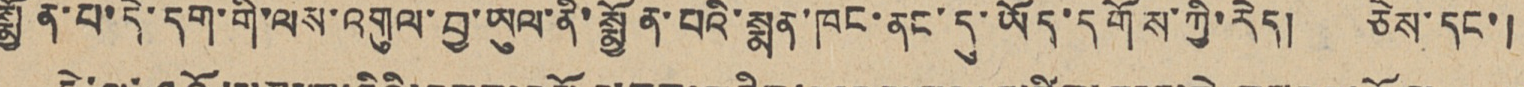སྨྱོན་པ་དེ་དག་གི་ལས་འགུལ་བྱ་ཡུལ་ནི་སྨྱོན་པའི་སྨན་ཁང་ནང་དུ་ཡོད་དགོས་ཀྱི་རེད། ཅེས་དང་།
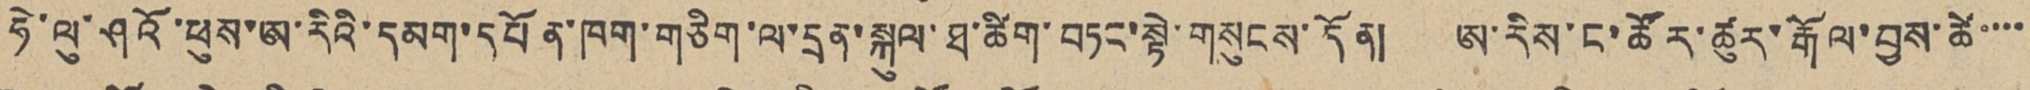ཧེ་ལུ་ཤའོ་ཕུས་ཨ་རིའི་དམག་དཔོན་ཁག་གཅིག་ལ་དྲན་སྐུལ་ཐ་ཚིག་བཏང་སྟེ་གསུངས་དོན། ཨ་རིས་ང་ཚོར་ཚུར་རྒོལ་བྱས་ཚེ་་་་
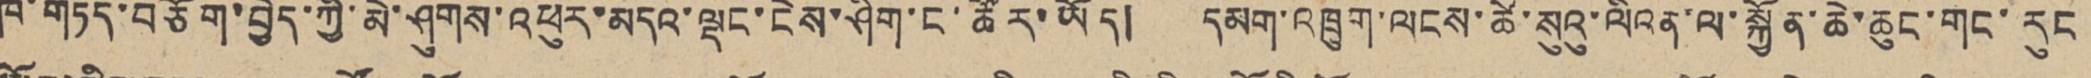ཁ་གཏད་བཅོད་བྱེད་ཀྱི་མེ་ཤུགས་འཕུར་མདའ་ལྡང་ངེས་ཤིག་ང་ཚོར་ཡོད། དམག་འཁྲུག་ལངས་ཚེ་སུའུ་ལིའན་ལ་སྐྱོན་ཆེ་ཆུང་གང་རུང
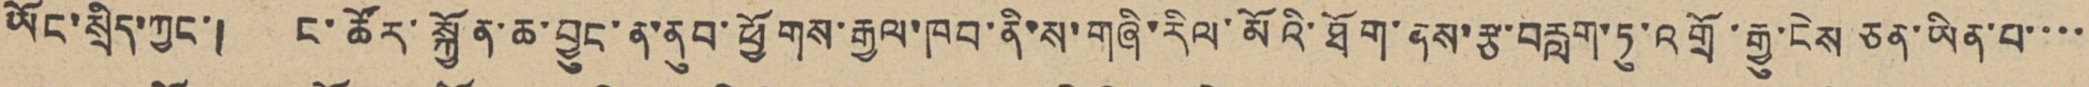ཡོང་སྲིད་ཀྱང་། ང་ཚོར་སྐྱོན་ཆ་བྱུང་ན་ནུབ་ཕྱོགས་རྒྱལ་ཁབ་ནི་ས་གཞི་རིལ་མོའི་ཐོག་ནས་རྩ་བརླག་ཏུ་འགྲོ་རྒྱུ་ངེས ཅན་ཡིན་པ་་་་
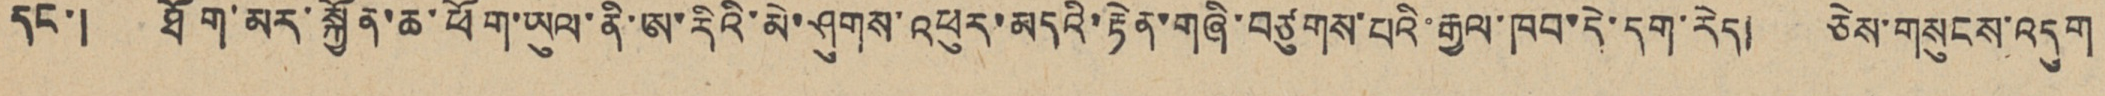དང་། ཐོག་མར་སྐྱོན་ཆ་ཕོག་ཡུལ་ནི་ཨ་རིའི་མེ་ཤུགས་འཕུར་མདའི་རྟེན་གཞི་བཙུགས་པའི་རྒྱལ་ཁབ་དེ་དག་རེད། ཅེས་གསུངས་འདུག
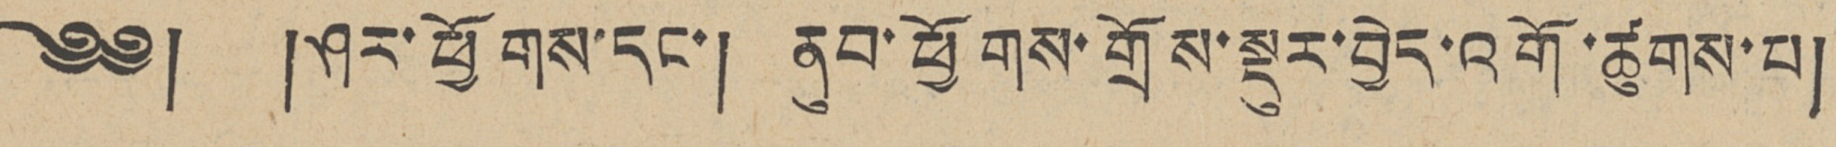༄༅། །ཤར་ཕྱོགས་དང་། ནུབ་ཕྱོགས་གྲོས་སྡུར་བྱེད་འགོ་ཚུགས་པ།
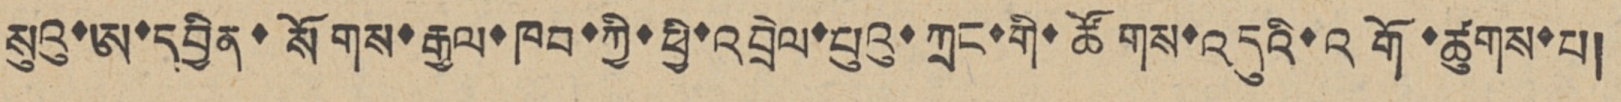སུའུ་ཨ་དབྱིན་སོགས་རྒྱལ་ཁབ་ཀྱི་ཕྱི་འབྲེལ་པུའུ་ཀྲང་གི་ཚོགས་འདུའི་འགོ་ཚུགས་པ།
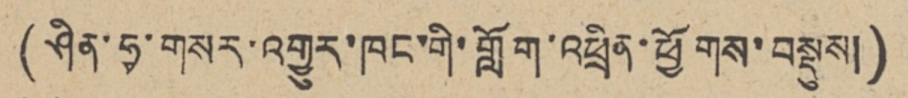(ཤིན་ཧྭ་གསར་འགྱུར་ཁང་གི་གློག་འཕྲིན་ཕྱོགས་བསྡུས།)
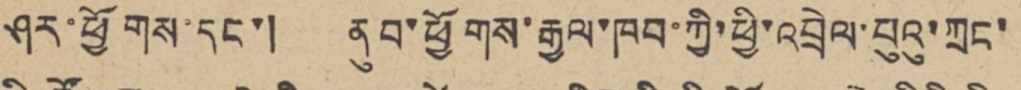ཤར་ཕྱོགས་དང་། ནུབ་ཕྱོགས་རྒྱལ་ཁབ་ཀྱི་ཕྱི་འབྲེལ་པུའུ་ཀྲང་
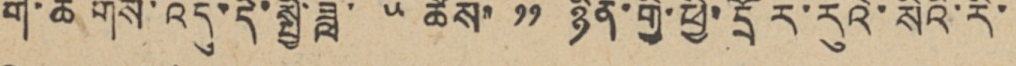གི་ཚོགས་འདུ་དེ་སྤྱི་ཟླ་ ༥ ཚེས་ ༡༡ ཉིན་གྱི་ཕྱི་དྲོར་རུའེ་སིའི་རི་
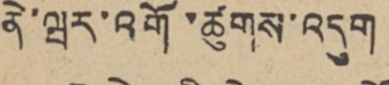ནེ་ཝར་འགོ་ཚུགས་འདུག
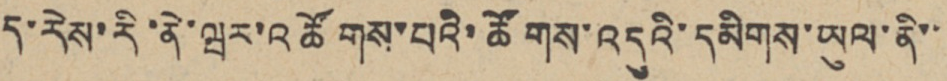ད་རེས་རི་ནེ་ཝར་འཚོགས་པའི་ཚོགས་འདུའི་དམིགས་ཡུལ་ནི་་
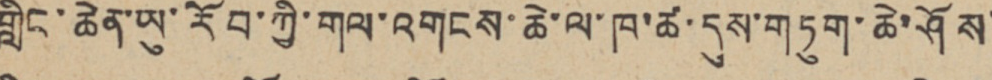གླིང་ཆེན་ཡུ་རོབ་ཀྱི་གལ་འགངས་ཆེ་ལ་ཁ་ཚ་དུས་གཏུག་ཆེ་ཤོས་
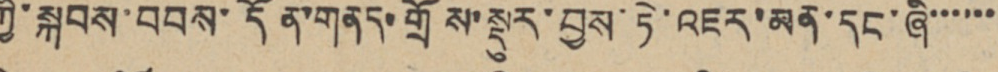ཀྱི་སྐབས་བབས་དོན་གནད་གྲོས་སྡུར་བྱས་ཏེ་འཇར་མན་དང་ཞི་་་་་་
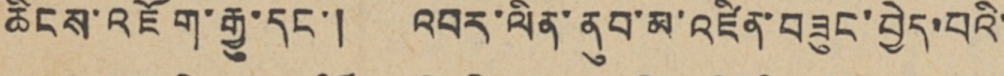ཆིངས་འཇོག་རྒྱུ་དང་། འབར་ལིན་ནུབ་མ་འཛིན་བཟུང་བྱེད་པའི་
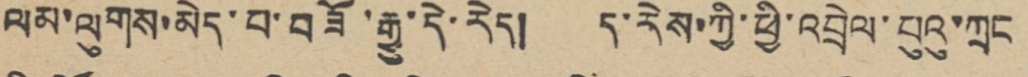ལམ་ལུགས་མེད་པ་བཟོ་རྒྱུ་དེ་རེད། ད་རེས་ཀྱི་ཕྱི་འབྲེལ་པུའུ་ཀྲང
